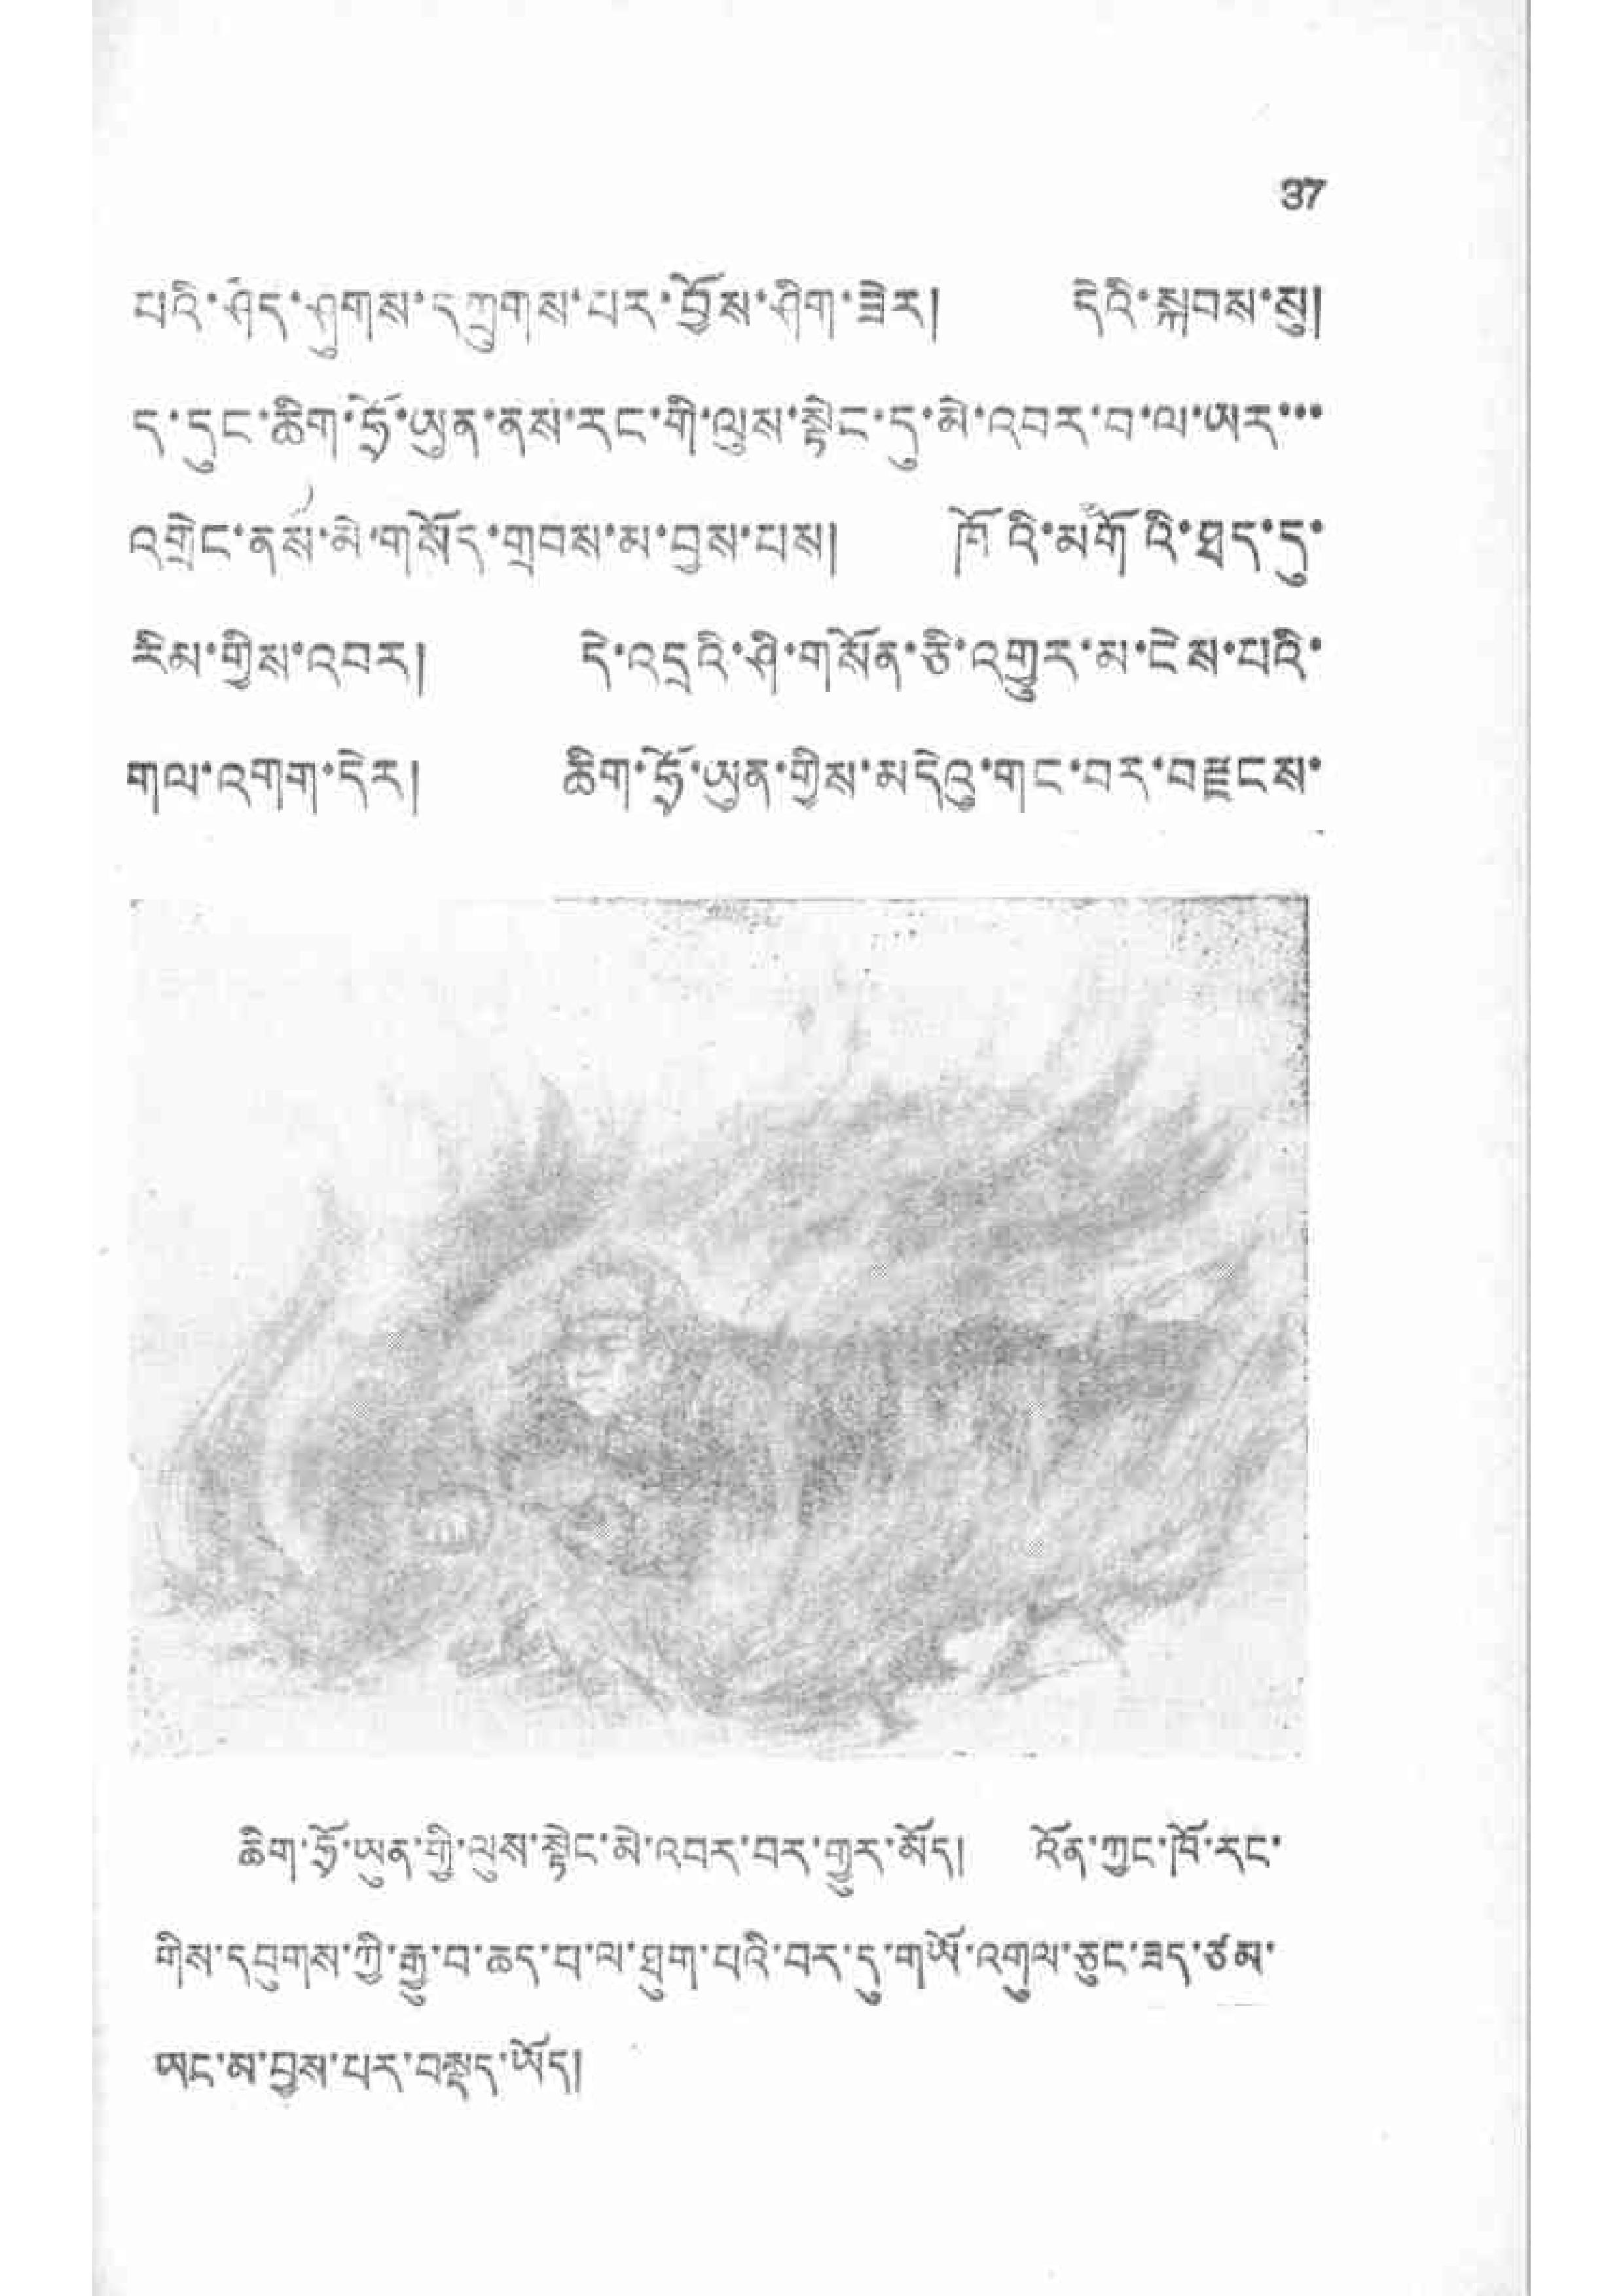37
པའི་ཤེད་ཤུགས་དཀྲུགས་པར་བྱོས་ཤིག་ཟེར། དེའི་སྐབས་སུ།
ད་དུང་ཆིག་ཧྲོ་ཡུན་ནས་རང་གི་ལུས་སྟེང་དུ་མེ་འབར་བ་ལ་ཡར་་་
འགྲེང་ནས་མེ་གསོར་གྲབས་མ་བྱས་པས། ཁོའི་མགོའི་ཐད་དུ་
རིམ་གྱིས་འབར། དེ་འདྲའི་ཤི་གསོན་ཅི་འགྱུར་མ་ངེས་པའི་
གལ་འགག་དེར། ཆིག་ཧྲོ་ཡུན་གྱིས་མདེའུ་གང་བར་བརྫུངས་
ཆིག་ཧྲོ་ཡུན་གྱི་ལུས་སྟེང་མེ་འབར་བར་གྱུར་མོད། འོན་ཀྱང་ཁོ་རང་
གིས་དབུགས་ཀྱི་རྒྱུ་བ་ཆད་པ་ལ་ཐུག་པའི་བར་དུ་གཡོ་འགུལ་ཅུང་ཟད་ཙམ་་་
ཡང་མ་བྱས་པར་བསྡད་ཡོད།
